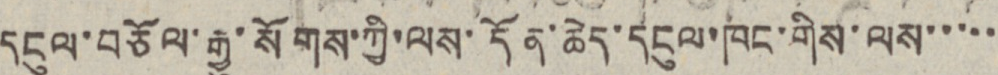དངུལ་བཅོལ་རྒྱུ་སོགས་ཀྱི་ལས་དོན་ཆེད་དངུལ་ཁང་གིས་ལས་་་་་
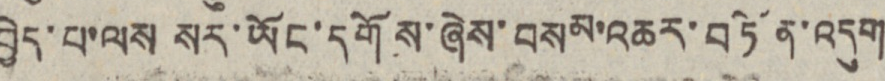བྱེད་པ་ལས སར་ཡོང་དགོས་ཞེས་བསམ་འཆར་བཏོན་འདུག
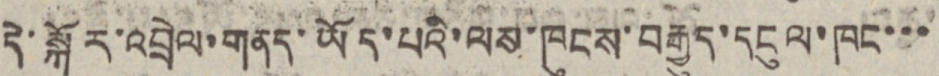དེ་སྐོར་འབྲེལ་གནད་ཡོད་པའི་ལས་ཁུངས་བརྒྱུད་དངུལ་ཁང་་་
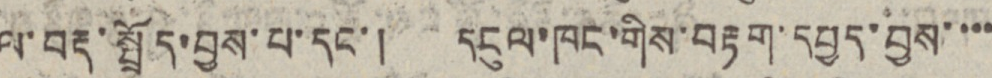ལ་བརྡ་སྤྲོད་བྱས་པ་དང་། དངུལ་ཁང་གིས་བརྟག་དཔྱད་བྱས་་་་
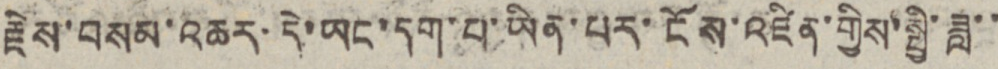རྗེས་བསམ་འཆར་དེ་ཡང་དག་པ་ཡིན་པར་ངོས་འཛིན་གྱིས་སྤྱི་ཟླ་་
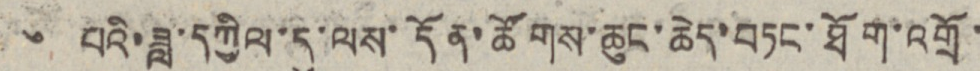༦ པའི་ཟླ་དཀྱིལ་དུ་ལས་དོན་ཚོགས་ཆུང་ཆེད་བཏང་ཐོག་འགྲོ་
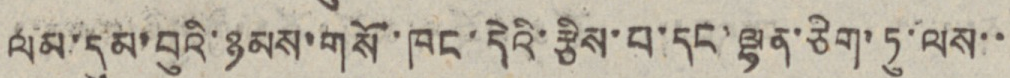ལམ་དུམ་བུའི་ཉམས་གསོ་ཁང་དེའི་རྩིས་བ་དང་ལྷན་ཅིག་ཏུ་ལས་་
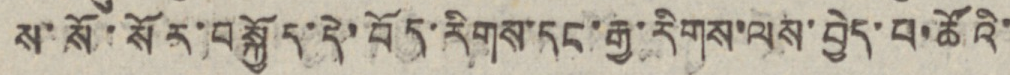ས་སོ་སོར་བསྐྱོད་དེ་བོད་རིགས་དང་རྒྱ་རིགས་ལས་བྱེད་པ་ཚོའི་
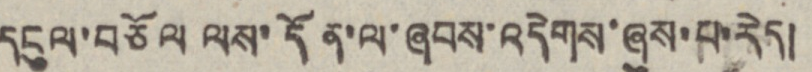དངུལ་བཅོལ ལས་དོན་ལ་ཞབས་འདེགས་ཞུས་པ་རེད།
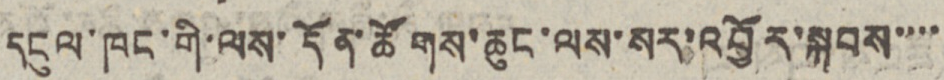དངུལ་ཁང་གི་ལས་དོན་ཚོགས་ཆུང་ལས་སར་འབྱོར་སྐབས་་་་
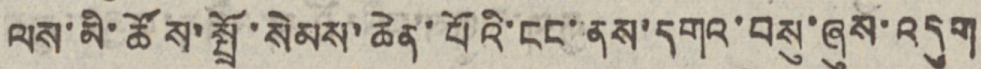ལས་མི་ཚོས་སྤྲོ་སེམས་ཆེན་པོའི་ངང་ནས་དགའ་བསུ་ཞུས་འདུག
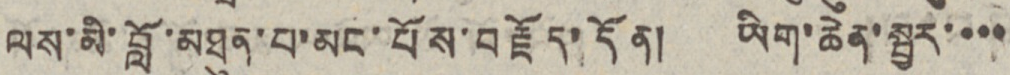ལས་མི་བློ་མཐུན་པ་མང་པོས་བརྗོད་དོན། ཡིག་ཆེན་སྦྱར་་་་
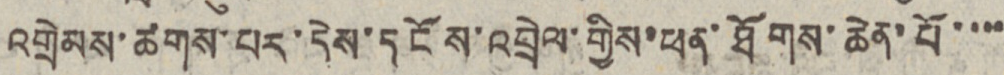འགྲེམས་ཚགས་པར་དེས་དངོས་འབྲེལ་གྱིས་ཕན་ཐོགས་ཆེན་པོ་་་་
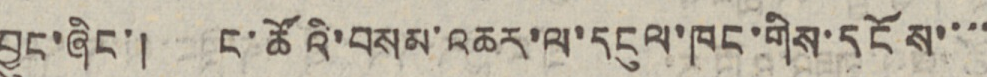བྱུང་ཞིང་། ང་ཚོའི་བསམ་འཆར་ལ་དངུལ་ཁང་གིས་དངོས་་་་
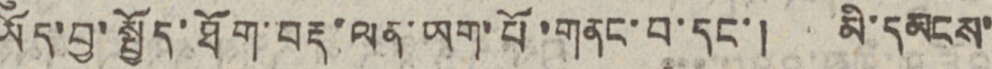ཡོད་བྱ་སྤྱོད་ཐོག་བརྡ་ལན་ཡག་པོ་གནང་བ་དང་། མི་དམངས་
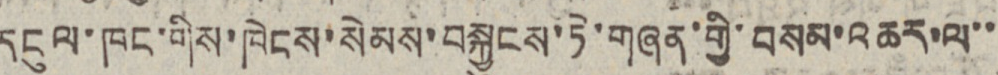དངུལ་ཁང་གིས་ཁེངས་སེམས་བསྐྱུངས་ཏེ་གཞན་གྱི་བསམ་འཆར་ལ་་
